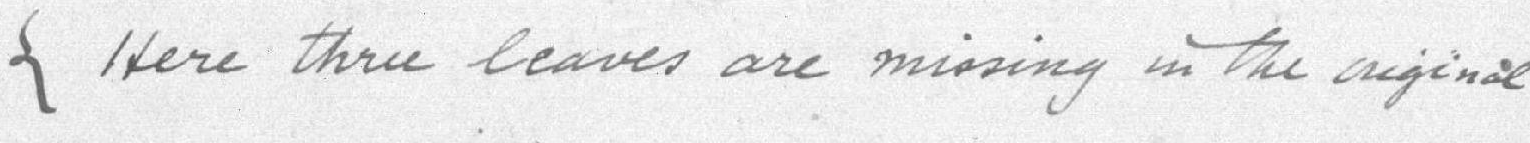{ Here three leaves are missing in the original
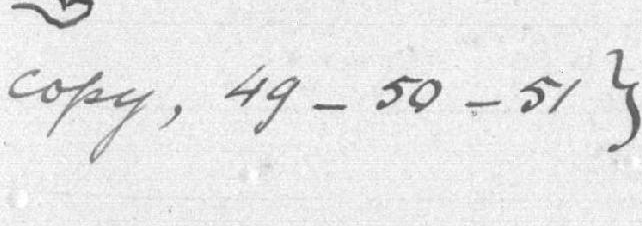copy, 49–50–51}
